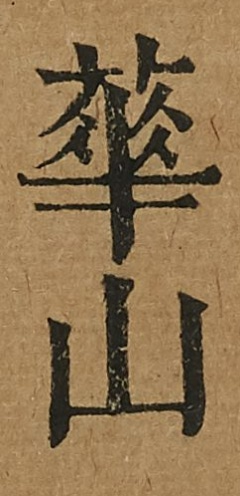華山
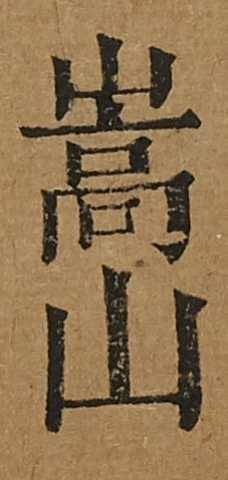嵩山
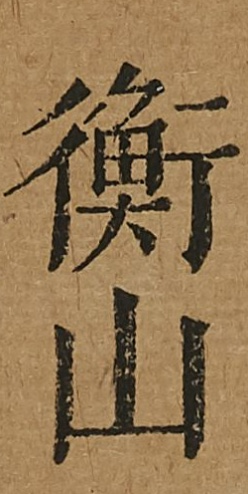衡山
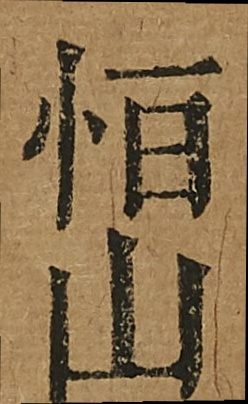恆山
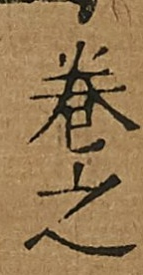卷之
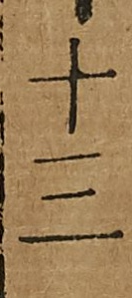十三
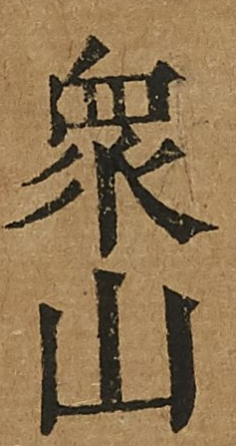衆山
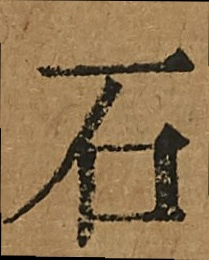石
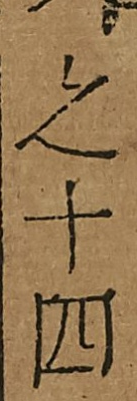之十四
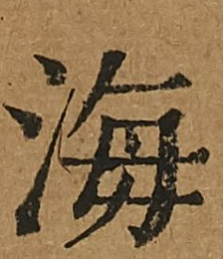海
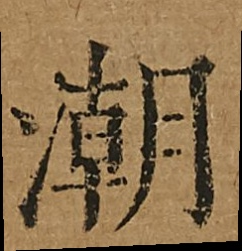潮
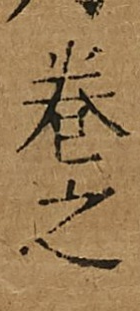卷之
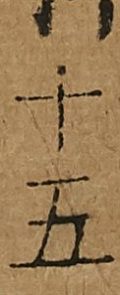十五
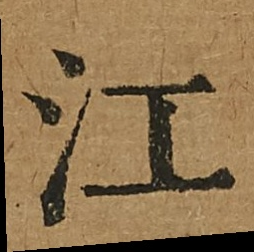江
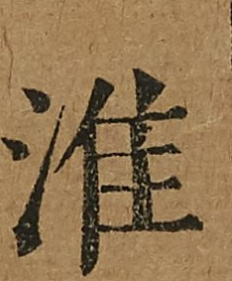淮
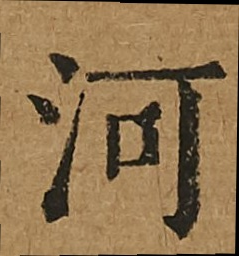河
